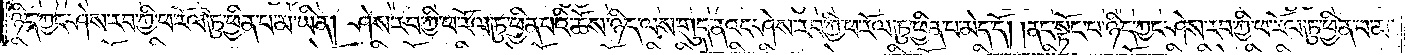ཉིད་ཀྱང་ཤེས་རབ་ཀྱི་ཕ་རོལ་ཏུ་ཕྱིན་པ་མ་ཡིན། ཤེས་རབ་ཀྱི་ཕ་རོལ་ཏུ་ཕྱིན་པའི་ཆོས་ཉིད་ལས་གུད་ནའང་ཤེས་རབ་ཀྱི་ཕ་རོལ་ཏུ་ཕྱིན་པ་མེད་དོ། །ནང་སྟོང་པ་ཉིད་ཀྱང་ཤེས་རབ་ཀྱི་ཕ་རོལ་ཏུ་ཕྱིན་པ་མ་
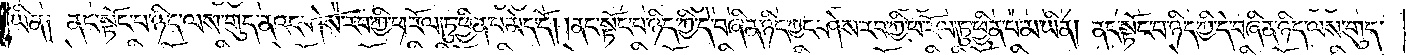ཡིན། ནང་སྟོང་པ་ཉིད་ལས་གུད་ནའང་ཤེས་རབ་ཀྱི་ཕ་རོལ་ཏུ་ཕྱིན་པ་མེད་དོ། །ནང་སྟོང་པ་ཉིད་ཀྱི་དེ་བཞིན་ཉིད་ཀྱང་ཤེས་རབ་ཀྱི་ཕ་རོལ་ཏུ་ཕྱིན་པ་མ་ཡིན། ནང་སྟོང་པ་ཉིད་ཀྱི་དེ་བཞིན་ཉིད་ལས་གུད་
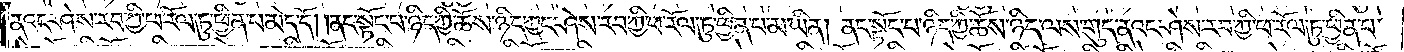ནའང་ཤེས་རབ་ཀྱི་ཕ་རོལ་ཏུ་ཕྱིན་པ་མེད་དོ། །ནང་སྟོང་པ་ཉིད་ཀྱི་ཆོས་ཉིད་ཀྱང་ཤེས་རབ་ཀྱི་ཕ་རོལ་ཏུ་ཕྱིན་པ་མ་ཡིན། ནང་སྟོང་པ་ཉིད་ཀྱི་ཆོས་ཉིད་ལས་གུད་ནའང་ཤེས་རབ་ཀྱི་ཕ་རོལ་ཏུ་ཕྱིན་པ་
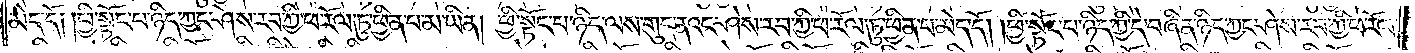མེད་དོ། །ཕྱི་སྟོང་པ་ཉིད་ཀྱང་ཤེས་རབ་ཀྱི་ཕ་རོལ་ཏུ་ཕྱིན་པ་མ་ཡིན། ཕྱི་སྟོང་པ་ཉིད་ལས་གུད་ནའང་ཤེས་རབ་ཀྱི་ཕ་རོལ་ཏུ་ཕྱིན་པ་མེད་དོ། །ཕྱི་སྟོང་པ་ཉིད་ཀྱི་དེ་བཞིན་ཉིད་ཀྱང་ཤེས་རབ་ཀྱི་ཕ་རོལ་
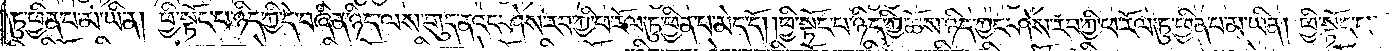ཏུ་ཕྱིན་པ་མ་ཡིན། ཕྱི་སྟོང་པ་ཉིད་ཀྱི་དེ་བཞིན་ཉིད་ལས་གུད་ནའང་ཤེས་རབ་ཀྱི་ཕ་རོལ་ཏུ་ཕྱིན་པ་མེད་དོ། །ཕྱི་སྟོང་པ་ཉིད་ཀྱི་ཆོས་ཉིད་ཀྱང་ཤེས་རབ་ཀྱི་ཕ་རོལ་ཏུ་ཕྱིན་པ་མ་ཡིན། ཕྱི་སྟོང་པ་
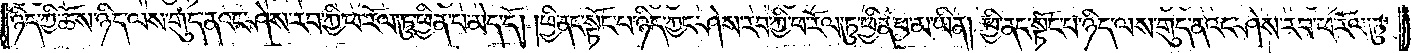ཉིད་ཀྱི་ཆོས་ཉིད་ལས་གུད་ནའང་ཤེས་རབ་ཀྱི་ཕ་རོལ་ཏུ་ཕྱིན་པ་མེད་དོ། །ཕྱི་ནང་སྟོང་པ་ཉིད་ཀྱང་ཤེས་རབ་ཀྱི་ཕ་རོལ་ཏུ་ཕྱིན་པ་མ་ཡིན། ཕྱི་ནང་སྟོང་པ་ཉིད་ལས་གུད་ནའང་ཤེས་རབ་ཀྱི་ཕ་རོལ་ཏུ་
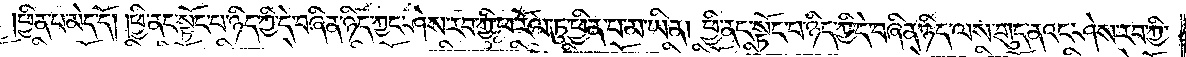ཕྱིན་པ་མེད་དོ། །ཕྱི་ནང་སྟོང་པ་ཉིད་ཀྱི་དེ་བཞིན་ཉིད་ཀྱང་ཤེས་རབ་ཀྱི་ཕ་རོལ་ཏུ་ཕྱིན་པ་མ་ཡིན། ཕྱི་ནང་སྟོང་པ་ཉིད་ཀྱི་དེ་བཞིན་ཉིད་ལས་གུད་ནའང་ཤེས་རབ་ཀྱི་
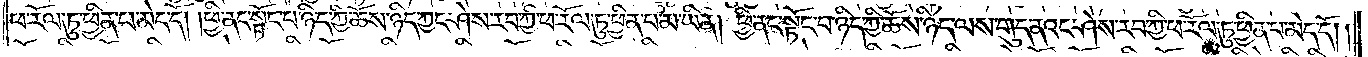ཕ་རོལ་ཏུ་ཕྱིན་པ་མེད་དོ། །ཕྱི་ནང་སྟོང་པ་ཉིད་ཀྱི་ཆོས་ཉིད་ཀྱང་ཤེས་རབ་ཀྱི་ཕ་རོལ་ཏུ་ཕྱིན་པ་མ་ཡིན། ཕྱི་ནང་སྟོང་པ་ཉིད་ཀྱི་ཆོས་ཉིད་ལས་གུད་ནའང་ཤེས་རབ་ཀྱི་ཕ་རོལ་ཏུ་ཕྱིན་པ་མེད་དོ། །
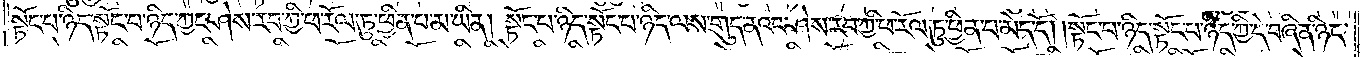སྟོང་པ་ཉིད་སྟོང་པ་ཉིད་ཀྱང་ཤེས་རབ་ཀྱི་ཕ་རོལ་ཏུ་ཕྱིན་པ་མ་ཡིན། སྟོང་པ་ཉིད་སྟོང་པ་ཉིད་ལས་གུད་ནའང་ཤེས་རབ་ཀྱི་ཕ་རོལ་ཏུ་ཕྱིན་པ་མེད་དོ། །སྟོང་པ་ཉིད་སྟོང་པ་ཉིད་ཀྱི་དེ་བཞིན་ཉིད་
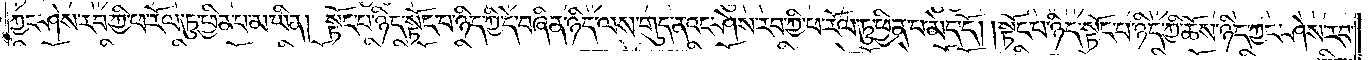ཀྱང་ཤེས་རབ་ཀྱི་ཕ་རོལ་ཏུ་ཕྱིན་པ་མ་ཡིན། སྟོང་པ་ཉིད་སྟོང་པ་ཉིད་ཀྱི་དེ་བཞིན་ཉིད་ལས་གུད་ནའང་ཤེས་རབ་ཀྱི་ཕ་རོལ་ཏུ་ཕྱིན་པ་མེད་དོ། །སྟོང་པ་ཉིད་སྟོང་པ་ཉིད་ཀྱི་ཆོས་ཉིད་ཀྱང་ཤེས་རབ་
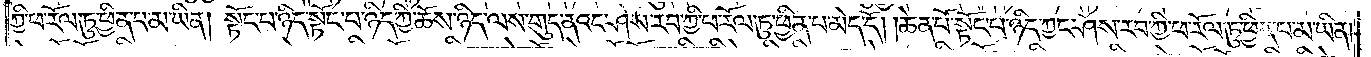ཀྱི་ཕ་རོལ་ཏུ་ཕྱིན་པ་མ་ཡིན། སྟོང་པ་ཉིད་སྟོང་པ་ཉིད་ཀྱི་ཆོས་ཉིད་ལས་གུད་ནའང་ཤེས་རབ་ཀྱི་ཕ་རོལ་ཏུ་ཕྱིན་པ་མེད་དོ། །ཆེན་པོ་སྟོང་པ་ཉིད་ཀྱང་ཤེས་རབ་ཀྱི་ཕ་རོལ་ཏུ་ཕྱིན་པ་མ་ཡིན།
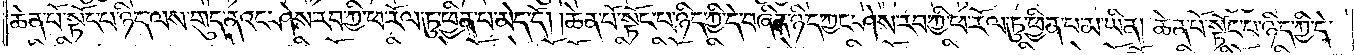ཆེན་པོ་སྟོང་པ་ཉིད་ལས་གུད་ནའང་ཤེས་རབ་ཀྱི་ཕ་རོལ་ཏུ་ཕྱིན་པ་མེད་དོ། །ཆེན་པོ་སྟོང་པ་ཉིད་ཀྱི་དེ་བཞིན་ཉིད་ཀྱང་ཤེས་རབ་ཀྱི་ཕ་རོལ་ཏུ་ཕྱིན་པ་མ་ཡིན། ཆེན་པོ་སྟོང་པ་ཉིད་ཀྱི་དེ་
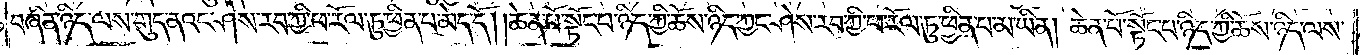བཞིན་ཉིད་ལས་གུད་ནའང་ཤེས་རབ་ཀྱི་ཕ་རོལ་ཏུ་ཕྱིན་པ་མེད་དོ། །ཆེན་པོ་སྟོང་པ་ཉིད་ཀྱི་ཆོས་ཉིད་ཀྱང་ཤེས་རབ་ཀྱི་ཕ་རོལ་ཏུ་ཕྱིན་པ་མ་ཡིན། ཆེན་པོ་སྟོང་པ་ཉིད་ཀྱི་ཆོས་ཉིད་ལས་
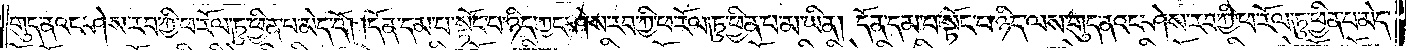གུད་ནའང་ཤེས་རབ་ཀྱི་ཕ་རོལ་ཏུ་ཕྱིན་པ་མེད་དོ། །དོན་དམ་པ་སྟོང་པ་ཉིད་ཀྱང་ཤེས་རབ་ཀྱི་ཕ་རོལ་ཏུ་ཕྱིན་པ་མ་ཡིན། དོན་དམ་པ་སྟོང་པ་ཉིད་ལས་གུད་ནའང་ཤེས་རབ་ཀྱི་ཕ་རོལ་ཏུ་ཕྱིན་པ་མེད་
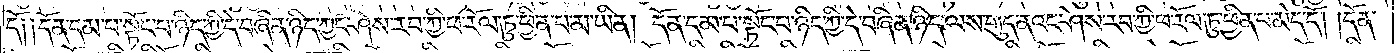དོ༑ ༑དོན་དམ་པ་སྟོང་པ་ཉིད་ཀྱི་དེ་བཞིན་ཉིད་ཀྱང་ཤེས་རབ་ཀྱི་ཕ་རོལ་ཏུ་ཕྱིན་པ་མ་ཡིན། དོན་དམ་པ་སྟོང་པ་ཉིད་ཀྱི་དེ་བཞིན་ཉིད་ལས་གུད་ནའང་ཤེས་རབ་ཀྱི་ཕ་རོལ་ཏུ་ཕྱིན་པ་མེད་དོ། །དོན་
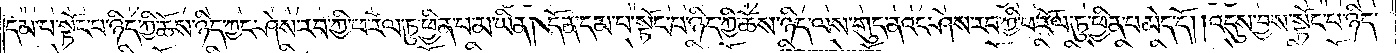དམ་པ་སྟོང་པ་ཉིད་ཀྱི་ཆོས་ཉིད་ཀྱང་ཤེས་རབ་ཀྱི་ཕ་རོལ་ཏུ་ཕྱིན་པ་མ་ཡིན། དོན་དམ་པ་སྟོང་པ་ཉིད་ཀྱི་ཆོས་ཉིད་ལས་གུད་ནའང་ཤེས་རབ་ཀྱི་ཕ་རོལ་ཏུ་ཕྱིན་པ་མེད་དོ། །འདུས་བྱས་སྟོང་པ་ཉིད་
